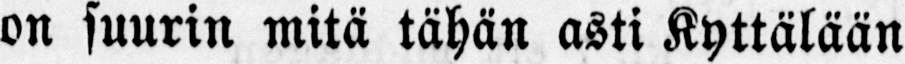on suurin mitä tähän asti Kyttälään
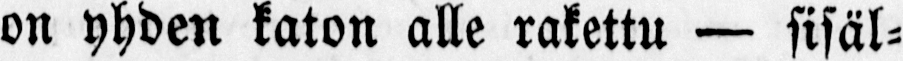on yhden katon alle rakettu — sisäl-
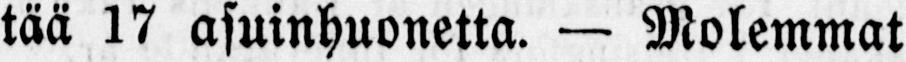tää 17 asuinhuonetta. — Molemmat
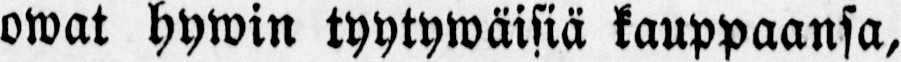owat hywin tyytywäisiä kauppaansa,
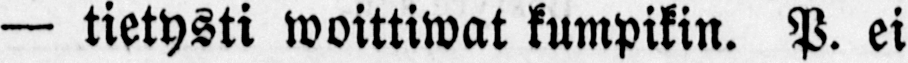— tietysti woittiwat kumpikin. P. ei
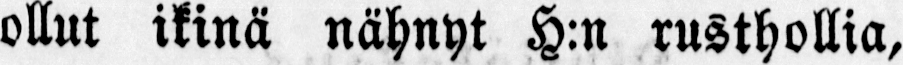ollut ikinä nähnyt H:n rusthollia,
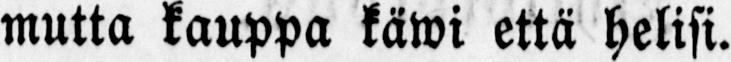mutta kauppa käwi että helisi.
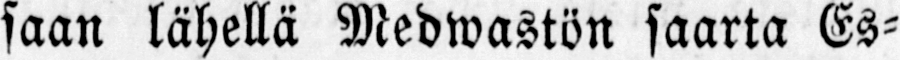saan lähellä Medwastön saarta Es-
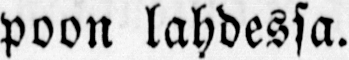poon lahdessa.
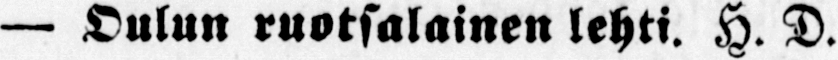— Oulun ruotsalainen lehti. H. D.
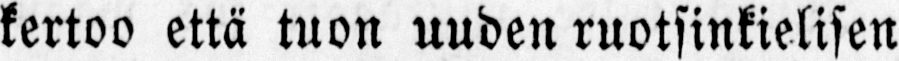kertoo että tuon uuden ruotsinkielisen
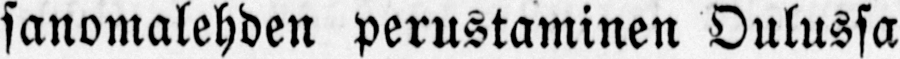sanomalehden perustaminen Oulussa
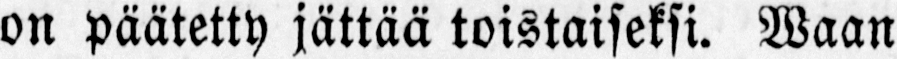on päätetty jättää toistaiseksi. Waan
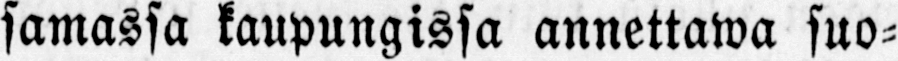samassa kaupungissa annettawa suo-
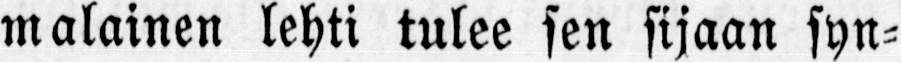malainen lehti tulee sen sijaan syn-
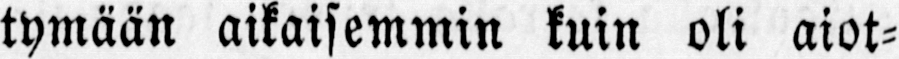tymään aikaisemmin kuin oli aiot-
